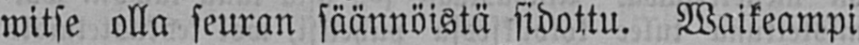witse olla seuran säännöistä sidottu. Waikeampi
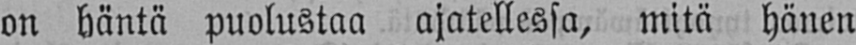on häntä puolustaa ajatellessa, mitä hänen
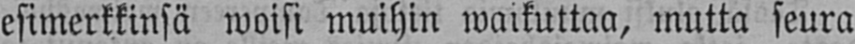esimerkkinsä woisi muihin waikuttaa, mutta seura
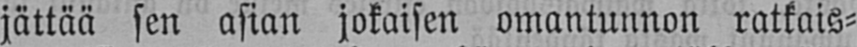jättää sen asian jokaisen omantunnon ratkais-
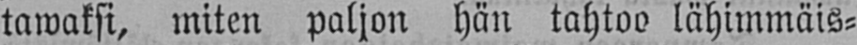tawaksi, miten paljon hän tahtoo lähimmäis-
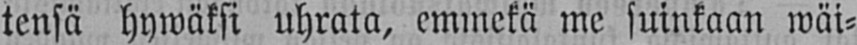tensä hywäksi uhrata, emmekä me suinkaan wäi-
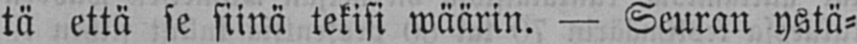tä että se siinä tekisi wäärin. — Seuran ystä-
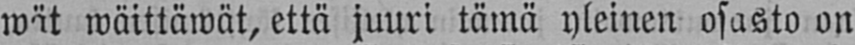wät wäittäwät, että juuri tämä yleinen osasto on
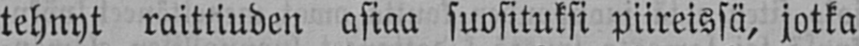tehnyt raittiuden asiaa suosituksi piireissä, jotka
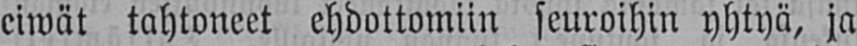eiwät tahtoneet ehdottomiin seuroihin yhtyä, ja
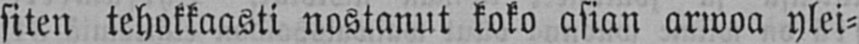siten tehokkaasti nostanut koko asian arwoa ylei-
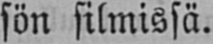sön silmissä.
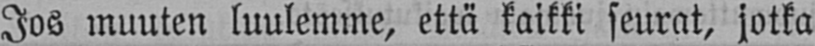Jos muuten luulemme, että kaikki seurat, jotka
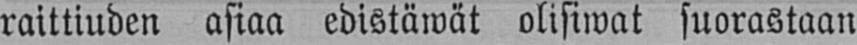raittiuden asiaa edistäwät olisiwat suorastaan
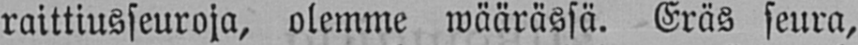raittiusseuroja, olemme wäärässä. Eräs seura,
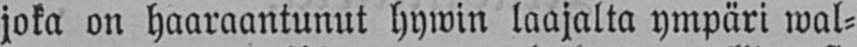joka on haaraantunut hywin laajalta ympäri wal-
